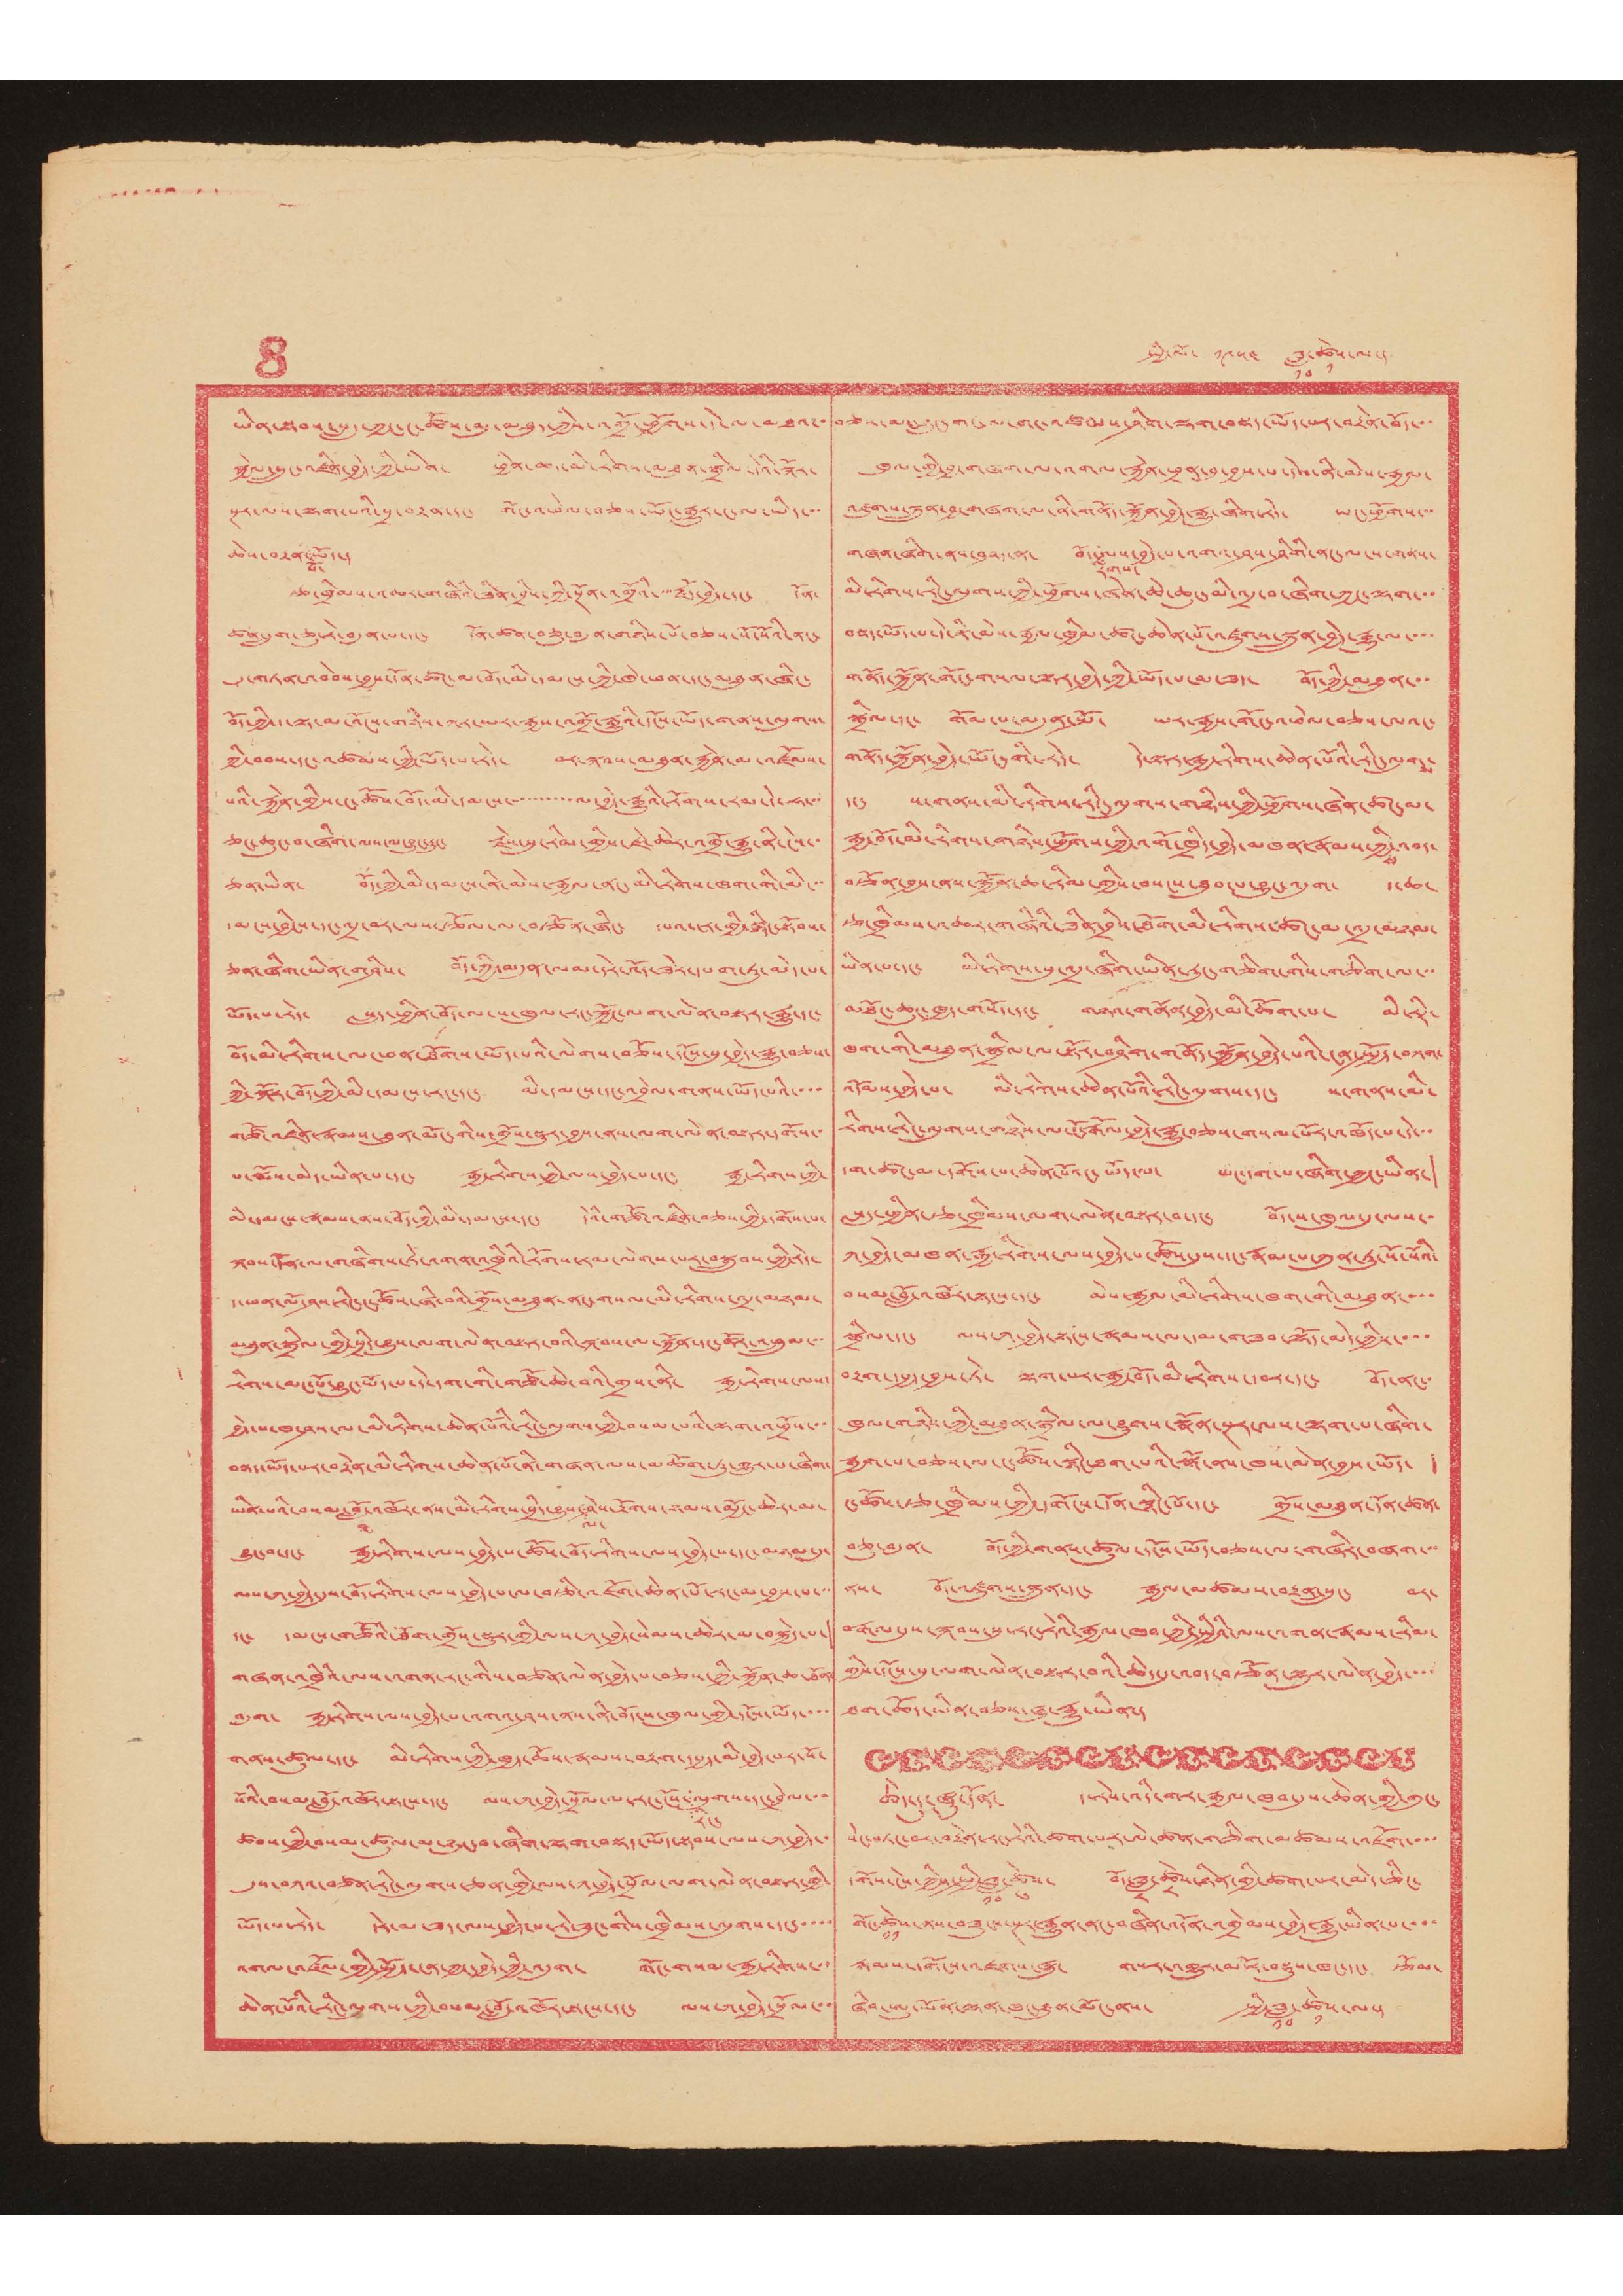8 སྤྱི་ལོ་ ༡༩༥༤ ཟླ་
༡༠
ཚེས་
༡
ལ་།
ཡིན་སྟབས་སླ་ཀྱང་ང་ཚོས་མུ་མཐུད་ཀྱིས་འགྲོ་ཕྱོགས་པེ་ལ་མཐའ་
སྒྱེལ་གྲུང་འཛིན་བྱེད་ཀྱི་ཡིན། ཕྱིན་ཆད་མི་རིགས་མཐུན་སྒྲིལ་དེའི་སྐོར་
སྔར་ལས་ལྷག་པའི་པྲ་བསྟན་དང་ གོང་འཕེལ་བཅས་ཡོང་རྒྱུར་ང་ལ་ཡིད་་
ཆེས་བརྟན་
པོ་
ཡོད།
རྩ་ཁྲིམས་འཆར་གཞིའི་ཟིན་བྲིས་ཀྱི་སྔོན་འགྲོའི་བརྗོད་བྱེད་དང་ དོན་
ཚན་དྲུག་ཅུ་རེ་བདུན་པ་དང་ དོན་ཚན་བཅུ་བདུན་གཉིས་པོ་བཅས་སོ་སོའི་ནང་
དུ་གཏན་འབེབས་བྱས་དོན་ཚང་མ་བོད་མི་དམངས་ཀྱི་ཁེ་ཕན་དང་མཐུན་ཞིང་
བོད་ཀྱི་ད་ལྟ་མ་འོངས་གཉིས་ཀར་ཡར་རྒྱས་འགྲོ་རྒྱུའི་དངོས་ཡོད་གནས་ལུགས་
ཀྱི་བབས་དང་འཚམས་ཀྱི་ཡོད་པ་རེད་ བར་སྐབས་མཐུན་རྐྱེན་མ་འཛོམས་
པའི་རྐྱེན་གྱིས་ང་ཚོས་བོད་མི་དམངས་་་་་་་་་་་ལ་བྱེད་རྒྱུའི་རོགས་རམ་དེ་ཧ་་་
ཅང་ཆུང་བ་ཞིག་ལས་མ་བྱུང་རུང་ རྗེས་རིམ་གྱིས་ཇེ་ཆེར་འགྲོ་རྒྱུ་ནི་ངེས་་
ཅན་ཡིན་ བོད་ཀྱི་མི་དམངས་ནི་མེས་རྒྱལ་ནང་མི་རིགས་ཁག་གི་མི་་་
དམངས་བྱིངས་དང་འདྲ་བར་ལས་ཙོལ་ལ་བཙོན་ཞིང་ དཔའ་ངར་གྱི་སྙིང་སྟོབས་
ཅན་ཞིག་ཡིན་གཤིས་ བོད་ཀྱི་བདུན་ལམ་དེར་འོད་ཟེར་དཔག་ཏུ་མེད་པ་
ཡོད་པ་རེད་ སླད་ཕྱིན་བོད་ལ་ས་ཁུལ་རང་སྐྱོང་ལག་ལེན་བསྟར་རྒྱུ་དང་
བོད་མི་རིགས་ལ་ཕན་ཐོགས་ཡོད་པའི་ལེགས་བཅོས་དངོས་སུ་བྱེད་རྒྱུ་བཅས་
ཀྱི་སྐོར་བོད་ཀྱི་མི་དམངས་རང་དང་ མི་དམངས་དང་འབྲེལ་གནས་ཡོད་པའི་་་་
གཙོ་འཛིན་རྣམས་ཐུན་མོང་གིས་གྲོས་སྡུར་བྱས་ནས་ལག་ལེན་བསྟར་དགོས་་
པ་སྨོས་མེད་ཡིན་པ་དང་ རྒྱ་རིགས་ཀྱི་ལས་བྱེད་པ་དང་ རྒྱ་རིགས་ཀྱི་
མི་དམངས་རྣམས་ནས་བོད་ཀྱི་མི་དམངས་དང་ དེའི་གཙོ་འཛིན་བཅས་ཀྱི་དགོས་པ་
སྐབས་དོན་ལ་གཞིགས་ཏེ་འགན་འཁྲིའི་རོགས་རམ་ལེགས་པར་བསྒྲུབས་ཀྱི་རེད་
ད་ཕན་ལོ་ཤས་རིང་ང་ཚོས་ཞི་བའི་གྲོས་མཐུན་ནང་གསལ་མི་རིགས་འདྲ་མཉམ་
མཐུན་སྒྲིལ་གྱི་སྲིད་བྱུས་ལག་ལེན་བསྟར་བའི་སྐབས་ལ་སྐྱོན་དང་ནོར་འཕྲུལ་་་
རིགས་མང་པོ་བྱུང་ཡོད་པ་དེ་དག་གི་གཙོ་ཆེ་བའི་གྲས་ནི་ རྒྱ་རིགས་ལས་
བྱེད་པ་ཁ་ཤས་ལ་མི་རིགས་ཆེན་པོའི་རིང་ལུགས་ཀྱི་བསམ་པའི་ལྷག་འཕྲོས་་་
བསྡད་ཡོད་པར་བརྟེན་མི་རིགས་ཆེན་པོ་ནི་གཞན་ལས་མཆོག་ཏུ་གྱུར་པ་ཞིག་
ཡིན་པའི་བསམ་བློ་
ལ་
འཁོར་ནས་མི་རིགས་སྲིད་བྱུས་
ལ་
ཤེས་རྟོགས་ཉམས་མྱོང་ཆེར་ལ་
བྱུང་བ་དང་ རྒྱ་རིགས་ལས་བྱེད་པ་ཚོས་བོད་རོགས་ལས་བྱེད་པ་དང་མཉམ་དུ་
ལས་ཀ་བྱེད་དུས་བོད་རིགས་ལས་བྱེད་པ་ལ་བཙི་འཇོག་ཆེན་པོ་རང་མ་བྱས་པ་་་
དང་ དམངས་གཙོའི་ཐོག་གྲོས་སྡུར་གྱི་ལས་ཀ་བྱེད་སེམས་ཆེར་མ་བསྐྱེད་པ་
གཞན་འཁྲིའི་ལས་འགན་རང་གིས་བཙན་ལེན་བྱེད་པ་བཅས་ཀྱི་སྐྱོན་ཆ་ཐོན་
འདུག་ རྒྱ་རིགས་ལས་བྱེད་པ་འགའ་ཤས་ནས་ནི་བོད་ས་ཁུལ་གྱི་དངོས་ཡོད་་་་
གནས་ཚུལ་དང་ མི་རིགས་ཀྱི་ཁྱད་ཆོས་རྣམས་བརྟག་དཔྱད་མི་བྱེད་པར་སོ་
སོའི་བསམ་བློ་འཁོར་སྟངས་དང་ ལས་ཀ་བྱེད་སྲོལ་ལ་རང་ངོས་
རིང་
ལུགས་དང་བྲེལ་་་
ཚབས་ཀྱི་བསམ་ཚུལ་མ་ཉུང་བ་ཞིག་ལྷག་བསྡད་ཡོད་སྟབས་ལས་ཀ་བྱེད་
དུས་བཀའ་བཙན་རིང་ལུགས་ཅན་གྱི་ལས་ཀ་བྱེད་སྲོལ་ལག་ལེན་བསྟན་གྱི་
ཡོད་པ་རེད་ དེར་མ་ཟད་ལས་བྱེད་པ་རེ་ཟུང་གིས་ཁྲིམས་ལུགས་དང་་་་
འགལ་འཛོལ་གྱི་སྤྱོད་ངན་ཀྱང་བྱེད་ཀྱི་འདུག་ གོང་གསལ་རྒྱ་རིགས་་་
ཆེན་པོའི་རིང་ལུགས་ཀྱི་བསམ་བློ་འཁོར་སྟངས་དང་ ལས་ཀ་བྱེད་སྲོལ་་་
བཅས་མང་ཉུང་གང་ལ་གང་འཚམས་ཤིག་ལྷག་བསྡད་ཡོད་པར་བརྟེན་བོད་་་
ཁུལ་གྱི་བྱ་གཞག་ལ་འགལ་རྐྱེན་ཕྲན་བུ་བྱས་པ་དེས་ནི་མེས་རྒྱལ་
འཛུགས་སྐྲུན་བྱ་གཞག་ལ་ནི་གནོད་སྐྱོན་བྱེད་རྒྱུ་ཞིག་རེད་ ཡང་ཕྱོགས་་་
གཞན་ཞིག་ནས་བཤད་ན་ བོད་
རིགས་
ལས་བྱེད་པ་འགའ་ཤས་ཤིགི་ནང་ལངས་གནས་
མི་རིགས་རིང་ལུགས་ཀྱི་ཕྱོགས་ཞན་ཆེ་ཆུང་མི་འདྲ་བ་ཞིག་ཀྱང་ལྷག་་་
བསྡད་ཡོད་པ་དེ་ནི་མེས་རྒྱལ་ཁྱིམ་ཚང་ཆེན་པོ་འཛུགས་སྐྲུན་བྱེད་རྒྱུ་ལ་་་་
གནོད་སྐྱོན་གོང་གསལ་ལྟར་བྱེད་ཀྱི་ཡོད་པ་མ་ཟད་ བོད་ཀྱི་མཐུན་་་
སྒྲིལ་དང་ གོམ་པ་བདུན་སྤོ་ ཡར་རྒྱས་གོང་འཕེལ་བཅས་ལའང་
གནོད་སྐྱོན་བྱེད་ཡོང་གི་རེད་ དེ་ལྟར་རྒྱ་རིགས་ཆེན་པོའི་རིང་ལུགས་
དང་ ས་གནས་མི་རིགས་རིང་ལུགས་གཉིས་ཀྱི་ཕྱོགས་ཞེན་ཚང་མ་
རྒྱ་བོད་མི་རིགས་གཉིས་ཕྱོགས་ཀྱི་འགོ་ཁྲིད་བྱེད་མཁན་རྣམས་ཀྱི
ས་
འབད་
བཙོན་བྱས་ནས་སྐྱོན་ཆ་རིམ་གྱིས་བསངས་ཐུབ་པ་བྱུང་འདུག་ ད་ཆ་
ཙ་ཁྲིམས་འཆར་གཞིའི་ཟིན་བྲིས་ཐོག་མི་རིགས་ཚང་མ་འདྲ་མཉམ་
ཡིན་པ་དང་ མི་རིགས་སུ་འདྲ་ཞིག་ཡིན་རུང་གཅིག་གིས་གཅིག་ལ་་་
མཐོང་ཆུང་ཁྱད་གསོད་དང་ གཉའ་གནོན་བྱེད་མི་ཆོག་དང་ མི་འདྲེ་
ཁག་གི་མཐུན་སྒྲིལ་ལ་སྟོར་བཤིག་གནོད་སྐྱོན་བྱེད་པའི་ངན་སྤྱོད་བཀག་
འདོམས་བྱེད་པ་ མི་རིགས་ཆེན་པོའི་རིང་ལུགས་དང་ ས་གནས་མི་
རིགས་རིང་ལུགས་གཉིས་ལ་ངོ་རྒོལ་བྱེད་རྒྱུ་བཅས་གསལ་པོར་འཁོད་པ་དེ་་་
དག་ཚང་མ་དགོས་པ་ཆེན་པོའང་ཡོད་ལ་ ཡང་དག་པ་ཞིག་ཀྱང་ཡིན།
སླད་ཕྱིན་ཙ་ཁྲིམས་ལག་ལེན་བསྟར་བ་དང་ བོད་ས་ཁུལ་དུ་ལས་་
ཀ་བྱེད་མཁན་རྒྱ་རིགས་ལས་བྱེད་པ་ཚོས་དུས་དང་རྣམ་པ་ཀུན་ཏུ་སོ་སོའི་
བསམ་བློ་འཁོར་སྟངས་དང་ མེས་རྒྱལ་མི་རིགས་ཁག་གི་མཐུན་་་་
སྒྲིལ་དང་ ལས་ཀ་བྱེད་སྟངས་རྣམས་ལ་དམ་གཟབ་ལྷོད་མེད་ཀྱིས་་་་
བརྟག་དཔྱད་བྱས་ཏེ་ ལྷག་པར་རྒྱ་གར་བོད་མི་རིགས་བར་དང་ བོད་ནང་་
ཁུལ་གཉིས་ཀྱི་མཐུན་སྒྲིལ་ལ་ཤུགས་སྣོན་སྔར་ལས་ལྷག་པ་ཞིག་
རྒྱག་པ་བཅས་ལ་ང་ཚོས་སྙིང་ཐག་པའི་སྒོ་ནས་ཁས་ལེན་བྱས་ཡོད་ །
ང་ཚོས་རྩ་ཁྲིམས་ཀྱི་དགོངས་དོན་སྙིང་པོ་དང་ གྲོས་མཐུན་དོན་ཚན་
བཅུ་བདུན་ བོད་ཀྱི་གནས་ཚུལ་དངོས་ཡོད་བཅས་ལ་གཞིར་བཞག་་་
ནས་ བོད་འཛུགས་སྐྲུན་དང་ རྒྱལ་མཚམས་བརྟན་སྲུང་ བར་
བརྒལ་དུས་སྐབས་སུ་རང་རེའི་རྒྱལ་ཁབ་ཀྱི་སྤྱིའི་ལས་འགན་རྣམས་རིམ་
གྱིས་དངོས་སུ་ལག་ལེན་བསྟར་བའི་ཆེད་དུ་འབད་བརྩོན་ལྷུར་ལེན་བྱེད་་་་
ཐག་ཆོད་ཡིན་བཅས་ཞུ་རྒྱུ་ཡིན།
ཆེད་དུ་ཞི་དོན་ ད་རེས་འདི་གར་རྒྱལ་ཁབ་དུས་ཆེན་གྱི་གུང་
སེང་བཏང་བར་བརྟེན་རང་རེའི་ཚག་པར་ལེ་ཚན་གཅིག་མཚམས་འཇོག་་་་
དགོས་ངེས་ཀྱིས་སྤྱི་ཟླ་
༡༠
ཚེས་
༦
བོད་ཟླ་
༨
ཚེས་
༨
ཉིན་གྱི་ཚག་པར་མེད་ཅིང་
གོང་ཚེས་
༡༡
ནས་བཟུངས་སྔར་རྒྱུན་ནང་བཞིན་འདོན་འགྲེམས་བྱེད་རྒྱུ་ཡིན་པ་་་་
རྣམས་གོངས་འཇགས་ཞུ་ གསར་འགྱུར་མདོར་བསྡུས་ཁང་དང་ རྩོམ་
ཞིབ་ཨུ་ཡོན་ལྷན་ཁང་ཐུན་མོང་ནས་ སྤྱི་ཟླ་
༡༠
ཚེས་
༡
ལ།
